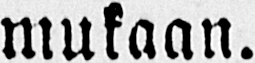mukaan.
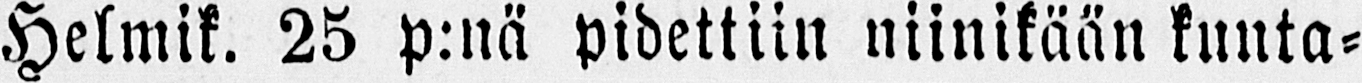Helmik. 25 p:nä pidettiin niinikään kunta-
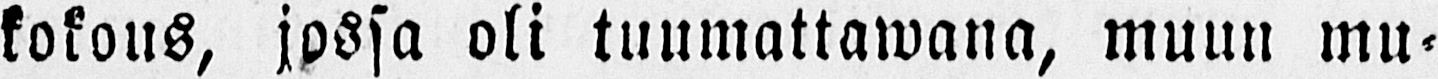kokous, jossa oli tuumattawana, muun mu-
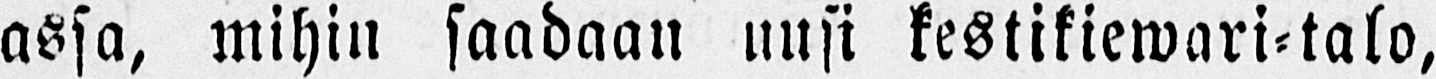assa, mihin saadaan uusi kestikiewari-talo,
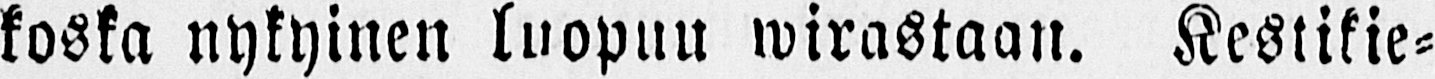koska nykyinen luopuu wirastaan. Kestikie-
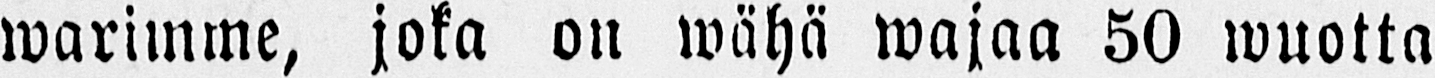warinme, joka on wähä wajaa 50 wuotta
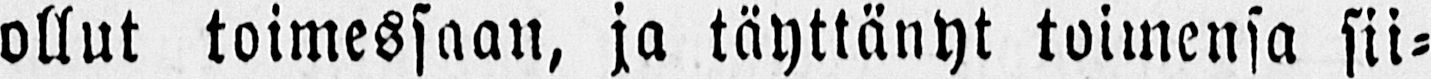ollut toimessaan, ja täyttänyt toimensa sii-
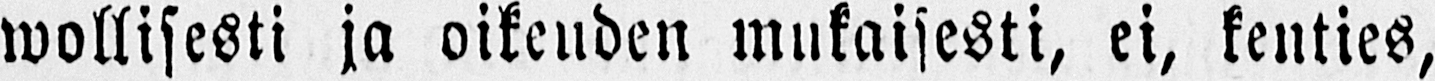wollisesti ja oikeuden mukaisesti, ei, kenties,
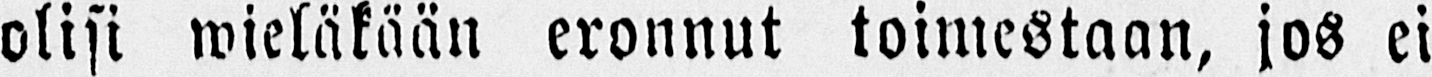olisi mieläkään eronnut toimestaan, jos ei
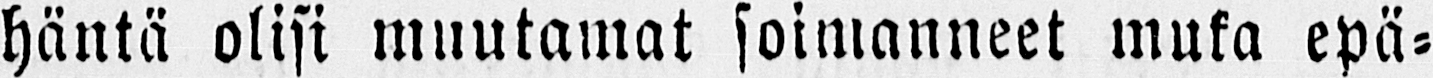häntä olisi muutamat soimanneet muka epä-
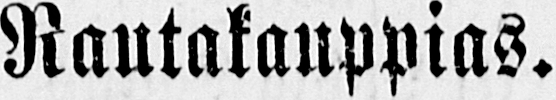Rautakauppias.
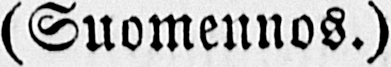(Suomennos.)
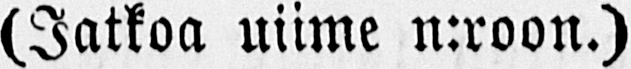(Jatkoa uiime n:roon.)
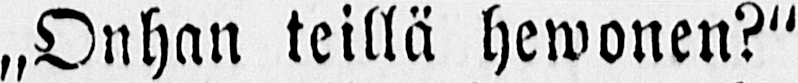„Onhan teillä hewonen?"
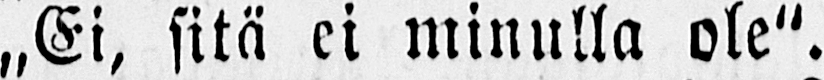„Ei, sitä ei minulla ole".
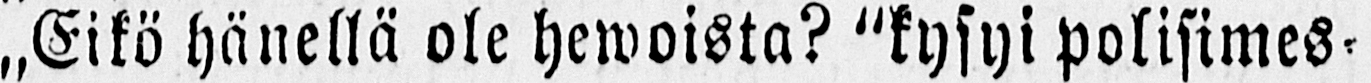„Eikö hänellä ole hewoista? "kysyi polisimes-
